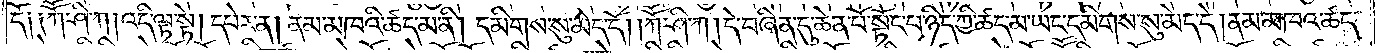དོ། །ཀཽ་ཤི་ཀ །འདི་ལྟ་སྟེ། དཔེར་ན། ནམ་མཁའི་ཚད་མ་ནི། དམིགས་སུ་མེད་དོ། །ཀཽ་ཤི་ཀ །དེ་བཞིན་དུ་ཆེན་པོ་སྟོང་པ་ཉིད་ཀྱི་ཚད་མ་ཡང་དམིགས་སུ་མེད་དེ། ནམ་མཁའ་ཚད་
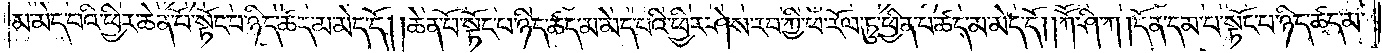མ་མེད་པའི་ཕྱིར་ཆེན་པོ་སྟོང་པ་ཉིད་ཚད་མ་མེད་དོ། །ཆེན་པོ་སྟོང་པ་ཉིད་ཚད་མ་མེད་པའི་ཕྱིར་ཤེས་རབ་ཀྱི་ཕ་རོལ་ཏུ་ཕྱིན་པ་ཚད་མ་མེད་དོ། །ཀཽ་ཤི་ཀ །དོན་དམ་པ་སྟོང་པ་ཉིད་ཚད་མ་
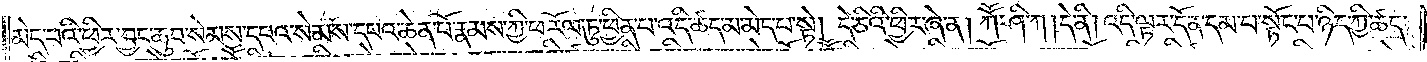མེད་པའི་ཕྱིར་བྱང་ཆུབ་སེམས་དཔའ་སེམས་དཔའ་ཆེན་པོ་རྣམས་ཀྱི་ཕ་རོལ་ཏུ་ཕྱིན་པ་འདི་ཚད་མ་མེད་པ་སྟེ། དེ་ཅིའི་ཕྱིར་ཞེ་ན། ཀཽ་ཤི་ཀ །དེ་ནི། འདི་ལྟར་དོན་དམ་པ་སྟོང་པ་ཉིད་ཀྱི་ཚད་
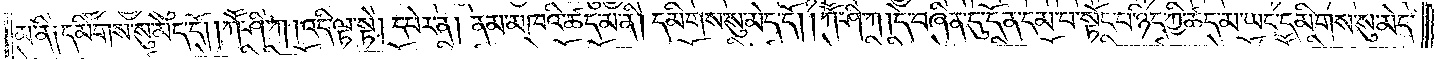མ་ནི། དམིགས་སུ་མེད་དོ། །ཀཽ་ཤི་ཀ །འདི་ལྟ་སྟེ། དཔེར་ན། ནམ་མཁའི་ཚད་མ་ནི། དམིགས་སུ་མེད་དོ། །ཀཽ་ཤི་ཀ །དེ་བཞིན་དུ་དོན་དམ་པ་སྟོང་པ་ཉིད་ཀྱི་ཚད་མ་ཡང་དམིགས་སུ་མེད་
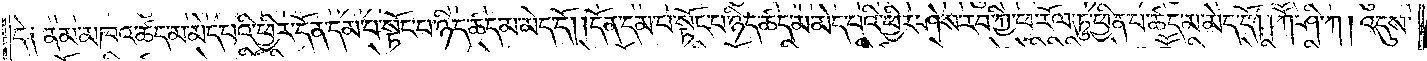དེ། ནམ་མཁའ་ཚད་མ་མེད་པའི་ཕྱིར་དོན་དམ་པ་སྟོང་པ་ཉིད་ཚད་མ་མེད་དོ། །དོན་དམ་པ་སྟོང་པ་ཉིད་ཚད་མ་མེད་པའི་ཕྱིར་ཤེས་རབ་ཀྱི་ཕ་རོལ་ཏུ་ཕྱིན་པ་ཚད་མ་མེད་དོ། །ཀཽ་ཤི་ཀ །འདུས་
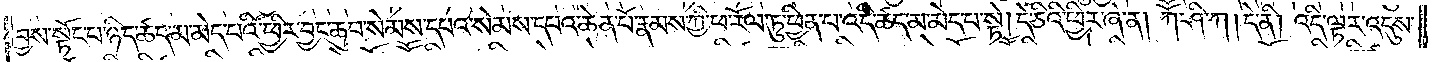བྱས་སྟོང་པ་ཉིད་ཚད་མ་མེད་པའི་ཕྱིར་བྱང་ཆུབ་སེམས་དཔའ་སེམས་དཔའ་ཆེན་པོ་རྣམས་ཀྱི་ཕ་རོལ་ཏུ་ཕྱིན་པ་འདི་ཚད་མ་མེད་པ་སྟེ། དེ་ཅིའི་ཕྱིར་ཞེ་ན། ཀཽ་ཤི་ཀ །དེ་ནི། འདི་ལྟར་འདུས་
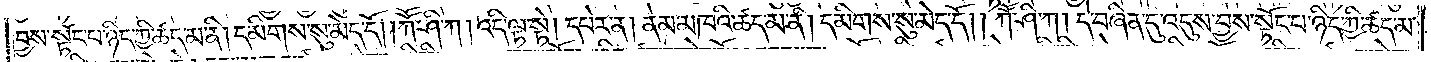བྱས་སྟོང་པ་ཉིད་ཀྱི་ཚད་མ་ནི། དམིགས་སུ་མེད་དོ། །ཀཽ་ཤི་ཀ །འདི་ལྟ་སྟེ། དཔེར་ན། ནམ་མཁའི་ཚད་མ་ནི། དམིགས་སུ་མེད་དོ། །ཀཽ་ཤི་ཀ །དེ་བཞིན་དུ་འདུས་བྱས་སྟོང་པ་ཉིད་ཀྱི་ཚད་མ་
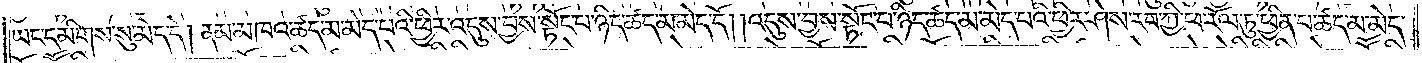ཡང་དམིགས་སུ་མེད་དེ། ནམ་མཁའ་ཚད་མ་མེད་པའི་ཕྱིར་འདུས་བྱས་སྟོང་པ་ཉིད་ཚད་མ་མེད་དོ། །འདུས་བྱས་སྟོང་པ་ཉིད་ཚད་མ་མེད་པའི་ཕྱིར་ཤེས་རབ་ཀྱི་ཕ་རོལ་ཏུ་ཕྱིན་པ་ཚད་མེད་
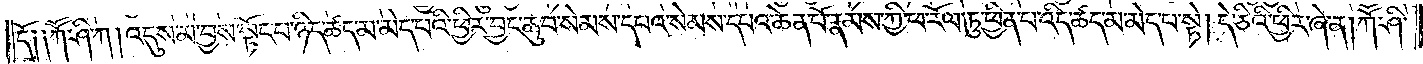དོ། །ཀཽ་ཤི་ཀ །འདུས་མ་བྱས་སྟོང་པ་ཉིད་ཚད་མ་མེད་པའི་ཕྱིར་བྱང་ཆུབ་སེམས་དཔའ་སེམས་དཔའ་ཆེན་པོ་རྣམས་ཀྱི་ཕ་རོལ་ཏུ་ཕྱིན་པ་འདི་ཚད་མ་མེད་པ་སྟེ། དེ་ཅིའི་ཕྱིར་ཞེ་ན། ཀཽ་ཤི་
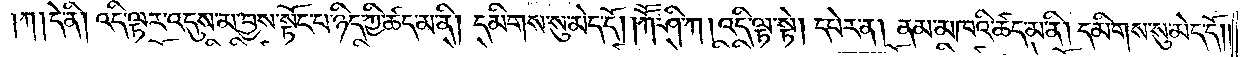ཀ །དེ་ནི། འདི་ལྟར་འདུས་མ་བྱས་སྟོང་པ་ཉིད་ཀྱི་ཚད་མ་ནི། དམིགས་སུ་མེད་དོ། །ཀཽ་ཤི་ཀ །འདི་ལྟ་སྟེ། དཔེར་ན། ནམ་མཁའི་ཚད་མ་ནི། དམིགས་སུ་མེད་དོ༎
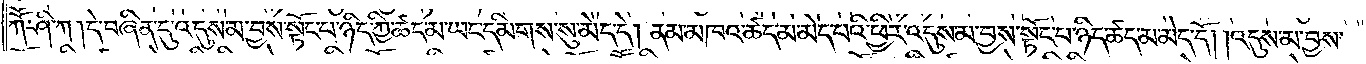ཀཽ་ཤི་ཀ །དེ་བཞིན་དུ་འདུས་མ་བྱས་སྟོང་པ་ཉིད་ཀྱི་ཚད་མ་ཡང་དམིགས་སུ་མེད་དེ། ནམ་མཁའ་ཚད་མ་མེད་པའི་ཕྱིར་འདུས་མ་བྱས་སྟོང་པ་ཉིད་ཚད་མ་མེད་དོ། །འདུས་མ་བྱས་
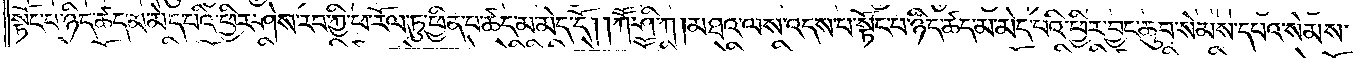སྟོང་པ་ཉིད་ཚད་མ་མེད་པའི་ཕྱིར་ཤེས་རབ་ཀྱི་ཕ་རོལ་ཏུ་ཕྱིན་པ་ཚད་མ་མེད་དོ། །ཀཽ་ཤི་ཀ །མཐའ་ལས་འདས་པ་སྟོང་པ་ཉིད་ཚད་མ་མེད་པའི་ཕྱིར་བྱང་ཆུབ་སེམས་དཔའ་སེམས་
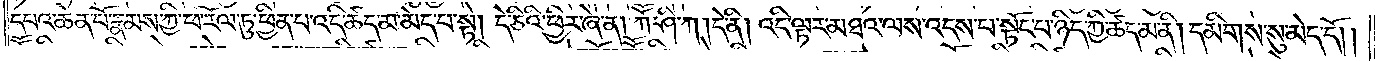དཔའ་ཆེན་པོ་རྣམས་ཀྱི་ཕ་རོལ་ཏུ་ཕྱིན་པ་འདི་ཚད་མ་མེད་པ་སྟེ། དེ་ཅིའི་ཕྱིར་ཞེ་ན། ཀཽ་ཤི་ཀ །དེ་ནི། འདི་ལྟར་མཐའ་ལས་འདས་པ་སྟོང་པ་ཉིད་ཀྱི་ཚད་མ་ནི། དམིགས་སུ་མེད་དོ༎
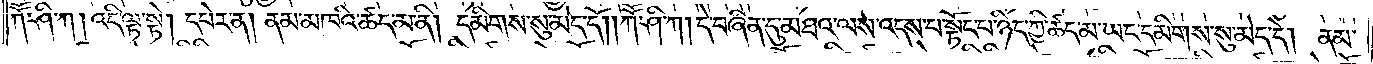ཀཽ་ཤི་ཀ །འདི་ལྟ་སྟེ། དཔེར་ན། ནམ་མཁའི་ཚད་མ་ནི། དམིགས་སུ་མེད་དོ། །ཀཽ་ཤི་ཀ །དེ་བཞིན་དུ་མཐའ་ལས་འདས་པ་སྟོང་པ་ཉིད་ཀྱི་ཚད་མ་ཡང་དམིགས་སུ་མེད་དེ། ནམ་
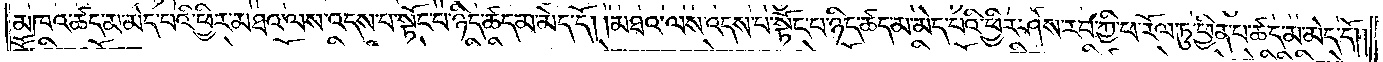མཁའ་ཚད་མ་མེད་པའི་ཕྱིར་མཐའ་ལས་འདས་པ་སྟོང་པ་ཉིད་ཚད་མ་མེད་དོ། །མཐའ་ལས་འདས་པ་སྟོང་པ་ཉིད་ཚད་མ་མེད་པའི་ཕྱིར་ཤེས་རབ་ཀྱི་ཕ་རོལ་ཏུ་ཕྱིན་པ་ཚད་མ་མེད་དོ༎
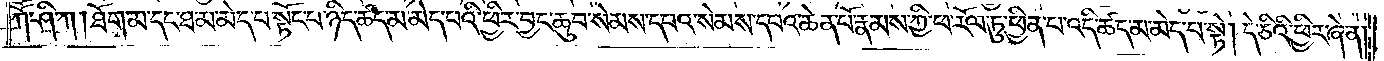ཀཽ་ཤི་ཀ །ཐོག་མ་དང་ཐ་མ་མེད་པ་སྟོང་པ་ཉིད་ཚད་མ་མེད་པའི་ཕྱིར་བྱང་ཆུབ་སེམས་དཔའ་སེམས་དཔའ་ཆེན་པོ་རྣམས་ཀྱི་ཕ་རོལ་ཏུ་ཕྱིན་པ་འདི་ཚད་མ་མེད་པ་སྟེ། དེ་ཅིའི་ཕྱིར་ཞེ་ན།
